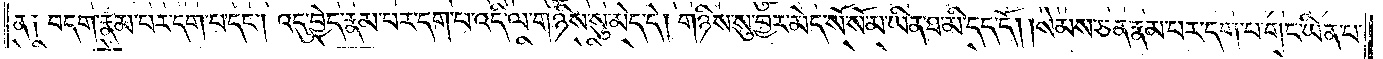ན༑ བདག་རྣམ་པར་དག་པ་དང༌། འདུ་བྱེད་རྣམ་པར་དག་པ་འདི་ལ་གཉིས་སུ་མེད་དེ། གཉིས་སུ་བྱར་མེད་སོ་སོ་མ་ཡིན་ཐ་མི་དད་དོ། །སེམས་ཅན་རྣམ་པར་དག་པ་གང་ཡིན་པ་
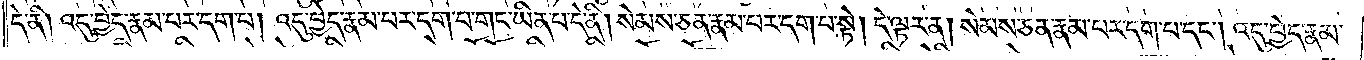དེ་ནི༑ འདུ་བྱེད་རྣམ་པར་དག་པ། འདུ་བྱེད་རྣམ་པར་དག་པ་གང་ཡིན་པ་དེ་ནི། སེམས་ཅན་རྣམ་པར་དག་པ་སྟེ། དེ་ལྟར་ན། སེམས་ཅན་རྣམ་པར་དག་པ་དང༌། འདུ་བྱེད་རྣམ་
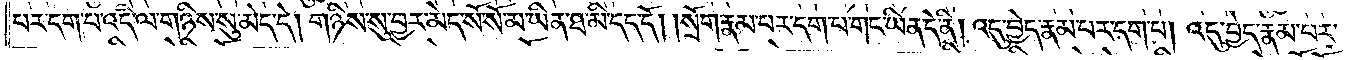པར་དག་པ་འདི་ལ་གཉིས་སུ་མེད་དེ། གཉིས་སུ་བྱར་མེད་སོ་སོ་མ་ཡིན་ཐ་མི་དད་དོ། །སྲོག་རྣམ་པར་དག་པ་གང་ཡིན་པ་དེ་ནི། འདུ་བྱེད་རྣམ་པར་དག་པ། འདུ་བྱེད་རྣམ་པར་
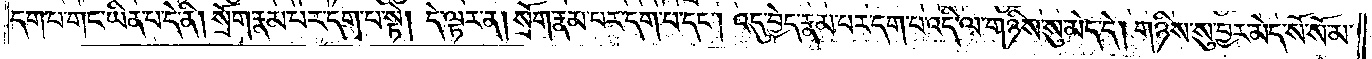དག་པ་གང་ཡིན་པ་དེ་ནི། སྲོག་རྣམ་པར་དག་པ་སྟེ། དེ་ལྟར་ན། སྲོག་རྣམ་པར་དག་པ་དང༌། འདུ་བྱེད་རྣམ་པར་དག་པ་འདི་ལ་གཉིས་སུ་མེད་དེ། གཉིས་སུ་བྱར་མེད་སོ་སོ་མ་
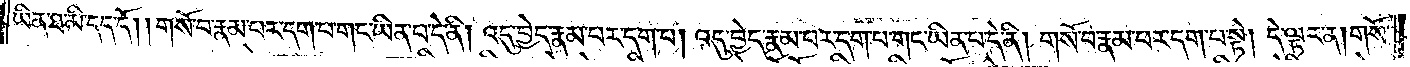ཡིན་ཐ་མི་དད་དོ། །གསོ་བ་རྣམ་པར་དག་པ་གང་ཡིན་པ་དེ་ནི། འདུ་བྱེད་རྣམ་པར་དག་པ། འདུ་བྱེད་རྣམ་པར་དག་པ་གང་ཡིན་པ་དེ་ནི། གསོ་བ་རྣམ་པར་དག་པ་སྟེ། དེ་ལྟར་ན། གསོ་
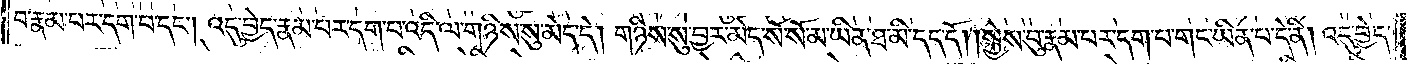བ་རྣམ་པར་དག་པ་དང༌། འདུ་བྱེད་རྣམ་པར་དག་པ་འདི་ལ་གཉིས་སུ་མེད་དེ། གཉིས་སུ་བྱར་མེད་སོ་སོ་མ་ཡིན་ཐ་མི་དད་དོ། །སྐྱེས་བུ་རྣམ་པར་དག་པ་གང་ཡིན་པ་དེ་ནི། འདུ་བྱེད་
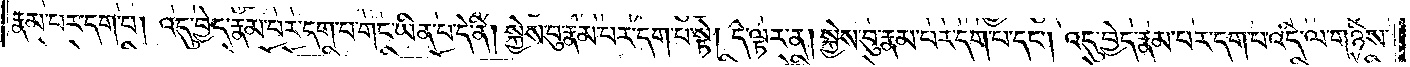རྣམ་པར་དག་པ། འདུ་བྱེད་རྣམ་པར་དག་པ་གང་ཡིན་པ་དེ་ནི། སྐྱེས་བུ་རྣམ་པར་དག་པ་སྟེ། དེ་ལྟར་ན། སྐྱེས་བུ་རྣམ་པར་དག་པ་དང༌། འདུ་བྱེད་རྣམ་པར་དག་པ་འདི་ལ་གཉིས་
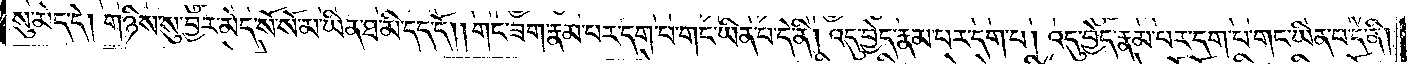སུ་མེད་དེ། གཉིས་སུ་བྱར་མེད་སོ་སོ་མ་ཡིན་ཐ་མི་དད་དོ། །གང་ཟག་རྣམ་པར་དག་པ་གང་ཡིན་པ་དེ་ནི། འདུ་བྱེད་རྣམ་པར་དག་པ། འདུ་བྱེད་རྣམ་པར་དག་པ་གང་ཡིན་པ་དེ་ནི།
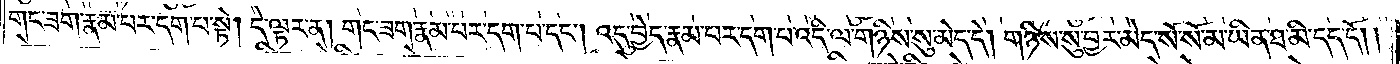གང་ཟག་རྣམ་པར་དག་པ་སྟེ། དེ་ལྟར་ན། གང་ཟག་རྣམ་པར་དག་པ་དང༌། འདུ་བྱེད་རྣམ་པར་དག་པ་འདི་ལ་གཉིས་སུ་མེད་དེ། གཉིས་སུ་བྱར་མེད་སོ་སོ་མ་ཡིན་ཐ་མི་དད་དོ། །
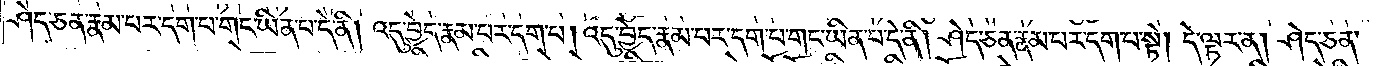ཤེད་ཅན་རྣམ་པར་དག་པ་གང་ཡིན་པ་དེ་ནི། འདུ་བྱེད་རྣམ་པར་དག་པ། འདུ་བྱེད་རྣམ་པར་དག་པ་གང་ཡིན་པ་དེ་ནི། ཤེད་ཅན་རྣམ་པར་དག་པ་སྟེ། དེ་ལྟར་ན། ཤེད་ཅན་
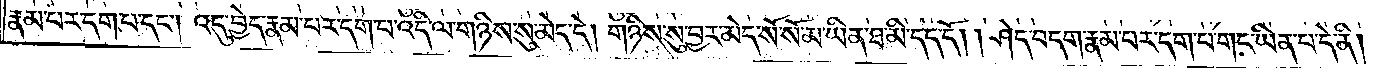རྣམ་པར་དག་པ་དང༌། འདུ་བྱེད་རྣམ་པར་དག་པ་འདི་ལ་གཉིས་སུ་མེད་དེ། གཉིས་སུ་བྱར་མེད་སོ་སོ་མ་ཡིན་ཐ་མི་དད་དོ། །ཤེད་བདག་རྣམ་པར་དག་པ་གང་ཡིན་པ་དེ་ནི།
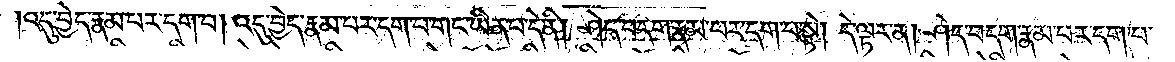འདུ་བྱེད་རྣམ་པར་དག་པ། འདུ་བྱེད་རྣམ་པར་དག་པ་གང་ཡིན་པ་དེ་ནི། ཤེད་བདག་རྣམ་པར་དག་པ་སྟེ། དེ་ལྟར་ན། ཤེད་བདག་རྣམ་པར་དག་པ་
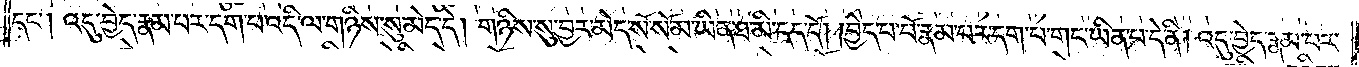དང༌། འདུ་བྱེད་རྣམ་པར་དག་པ་འདི་ལ་གཉིས་སུ་མེད་དེ། གཉིས་སུ་བྱར་མེད་སོ་སོ་མ་ཡིན་ཐ་མི་དད་དོ། །བྱེད་པ་པོ་རྣམ་པར་དག་པ་གང་ཡིན་པ་དེ་ནི། འདུ་བྱེད་རྣམ་པར་
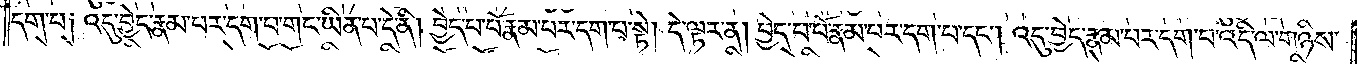དག་པ༑ འདུ་བྱེད་རྣམ་པར་དག་པ་གང་ཡིན་པ་དེ་ནི། བྱེད་པ་པོ་རྣམ་པར་དག་པ་སྟེ། དེ་ལྟར་ན། བྱེད་པ་པོ་རྣམ་པར་དག་པ་དང༌། འདུ་བྱེད་རྣམ་པར་དག་པ་འདི་ལ་གཉིས་
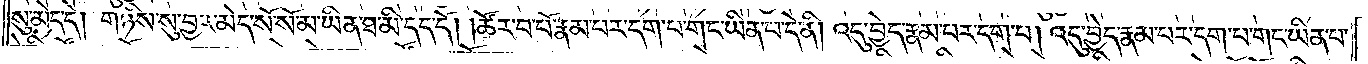སུ་མེད་དེ། གཉིས་སུ་བྱར་མེད་སོ་སོ་མ་ཡིན་ཐ་མི་དད་དོ། །ཚོར་བ་པོ་རྣམ་པར་དག་པ་གང་ཡིན་པ་དེ་ནི། འདུ་བྱེད་རྣམ་པར་དག་པ། འདུ་བྱེད་རྣམ་པར་དག་པ་གང་ཡིན་པ་
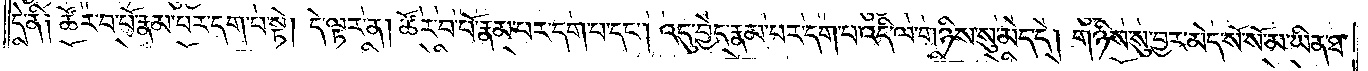དེ་ནི༑ ཚོར་བ་པོ་རྣམ་པར་དག་པ་སྟེ། དེ་ལྟར་ན། ཚོར་བ་པོ་རྣམ་པར་དག་པ་དང༌། འདུ་བྱེད་རྣམ་པར་དག་པ་འདི་ལ་གཉིས་སུ་མེད་དེ། གཉིས་སུ་བྱར་མེད་སོ་སོ་མ་ཡིན་ཐ་
